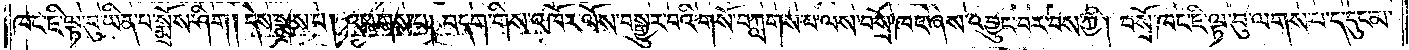ཁང་ཇི་ལྟ་བུ་ཡིན་པ་སྨྲོས་ཤིག །དེས་སྨྲས་པ། འཕགས་པ། བདག་གིས་འཁོར་ལོས་བསྒྱུར་བའི་གསོ་བཀླགས་པ་ལས་བསྲོ་ཁང་ཞེས་འབྱུང་བར་བས་ཀྱི། བསྲོ་ཁང་ཇི་ལྟ་བུ་ལགས་པ་ད་དུང་མ་
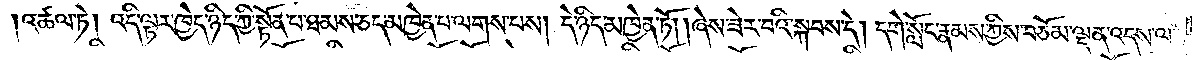འཚལ་ཏེ། འདི་ལྟར་ཁྱེད་ཉིད་ཀྱི་སྟོན་པ་ཐམས་ཅད་མཁྱེན་པ་ལགས་པས། དེ་ཉིད་མཁྱེན་ཏོ། །ཞེས་ཟེར་བའི་སྐབས་དེ། དགེ་སློང་རྣམས་ཀྱིས་བཅོམ་ལྡན་འདས་ལ་
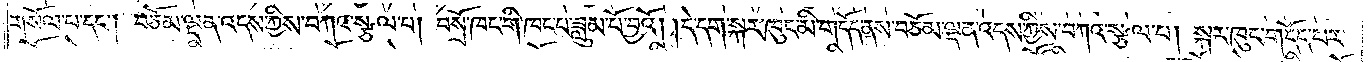གསོལ་པ་དང༌། བཅོམ་ལྡན་འདས་ཀྱིས་བཀའ་སྩལ་པ། བསྲོ་ཁང་གི་ཁང་པ་ཟླུམ་པོ་བྱའོ། །དེ་དག་སྐར་ཁུང་མི་གདོད་ནས་བཅོམ་ལྡན་འདས་ཀྱིས་བཀའ་སྩལ་པ། སྐར་ཁུང་གདོད་པར་
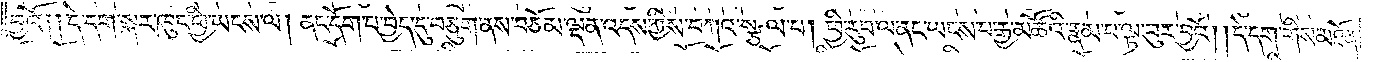བྱའོ། །དེ་དག་སྐར་ཁུང་ཕྱི་ཡངས་ལ། ནང་དོག་པ་བྱེད་དུ་བཅུག་ནས་བཅོམ་ལྡན་འདས་ཀྱིས་བཀའ་སྩལ་པ། ཕྱི་རུབ་ལ་ནང་ཡངས་པ་རྒྱ་མཚོའི་རྣམ་པ་ལྟ་བུར་བྱའོ། །དེ་དག་གིས་མཐོན་
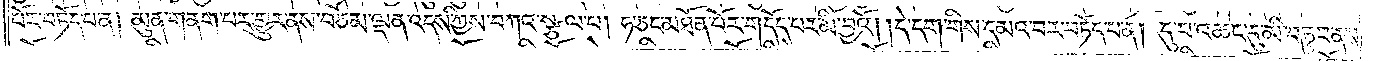པོར་བཏོད་པ་ན། མུན་གནག་པར་གྱུར་ནས་བཅོམ་ལྡན་འདས་ཀྱིས་བཀའ་སྩལ་པ། ཧ་ཅང་མཐོན་པོར་གདོད་པར་མི་བྱའོ། །དེ་དག་གིས་དམའ་བར་བཏོད་པ་ན། དུ་བ་འཆང་དུ་མི་བཏུབ་ནས་
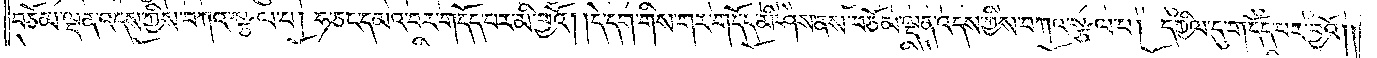བཅོམ་ལྡན་འདས་ཀྱིས་བཀའ་སྩལ་པ། ཧ་ཅང་དམའ་བར་གདོད་པར་མི་བྱའོ། །དེ་དག་གིས་གར་གདོད་མི་ཤེས་ནས་བཅོམ་ལྡན་འདས་ཀྱིས་བཀའ་སྩལ་པ། དཀྱིལ་དུ་གདོད་པར་བྱའོ། །
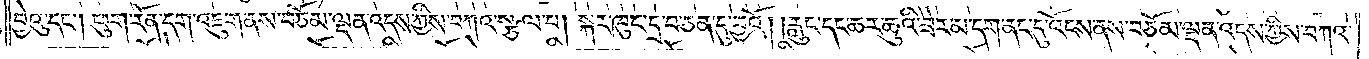བྱེའུ་དང༌། ཕུག་རོན་དག་འཇུག་ནས་བཅོམ་ལྡན་འདས་ཀྱིས་བཀའ་སྩལ་པ། སྐར་ཁུང་དྲ་བ་ཅན་དུ་བྱའོ། །རླུང་དང་ཆར་ཆུའི་ཟེར་མ་དག་ནང་དུ་འོངས་ནས་བཅོམ་ལྡན་འདས་ཀྱིས་བཀའ་
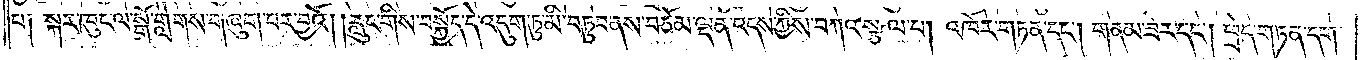པ༑ སྐར་ཁུང་ལ་སྒོ་གླེགས་གཞུག་པར་བྱའོ། །རླུང་གིས་བསྐྱོད་དེ་འདུག་ཏུ་མི་བཏུབ་ནས་བཅོམ་ལྡན་འདས་ཀྱིས་བཀའ་སྩལ་པ། འཁོར་གཏན་དང༌། གནམ་ཟེར་དང༌། ཕྲེད་གཏན་དག་
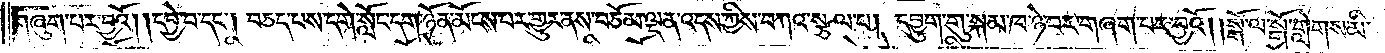གཞུག་པར་བྱའོ། །དབྱེ་བ་དང༌། བཅད་པས་དགེ་སློང་དག་ཉོན་མོངས་པར་གྱུར་ནས་བཅོམ་ལྡན་འདས་ཀྱིས་བཀའ་སྩལ་པ། དབྱུག་གུ་སྐམ་ཁ་ཉེ་བར་གཞག་པར་བྱའོ། །སྒོ་ལ་སྒོ་གླེགས་མི་
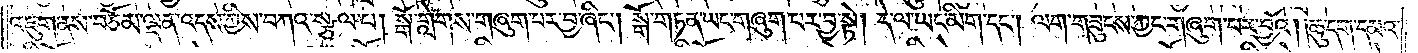འཇུག་ནས་བཅོམ་ལྡན་འདས་ཀྱིས་བཀའ་སྩལ་པ། སྒོ་གླེགས་གཞུག་པར་བྱ་ཞིང༌། སྒོ་གཏན་ཡང་གཞུག་པར་བྱ་སྟེ། དེ་ལ་ཡང་མིག་དང༌། ལག་གཟུངས་ཀྱང་གཞུག་པར་བྱའོ། །ཆུ་དག་དམའ་
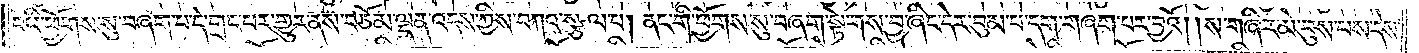བའི་ཕྱོགས་སུ་བཞག་པ་དེ་གྲང་པར་གྱུར་ནས་བཅོམ་ལྡན་འདས་ཀྱིས་བཀའ་སྩལ་པ། ནང་གི་ཕྱོགས་སུ་བཞག་སྟེགས་བྱ་ཞིང་དེར་བུམ་པ་དག་གཞག་པར་བྱའོ། །ས་གཞིར་མེ་བུས་པས་དེས་
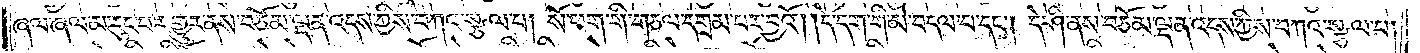ཞལ་ཞལ་མ་རུང་པར་གྱུར་ནས་བཅོམ་ལྡན་འདས་ཀྱིས་བཀའ་སྩལ་པ། སོ་ཕག་གི་གཅལ་དགྲམ་པར་བྱའོ། །དེ་དག་གི་མེ་བདལ་བ་དང༌། དེ་ཤི་ནས་བཅོམ་ལྡན་འདས་ཀྱིས་བཀའ་སྩལ་པ།
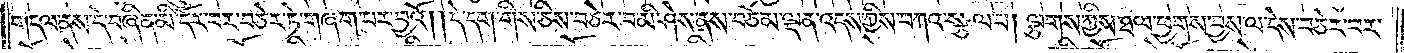གདལ་ནས་དེ་བཞིན་མི་དོར་བར་བཅེར་ཏེ་གཞག་པར་བྱའོ། །དེ་དག་གིས་ཅིས་བཅེར་བ་མི་ཤེས་ནས་བཅོམ་ལྡན་འདས་ཀྱིས་བཀའ་སྩལ་པ། ལྕགས་ཀྱིས་ཐལ་ཕྱགས་བྱས་ལ་དེས་བཅེར་བར་
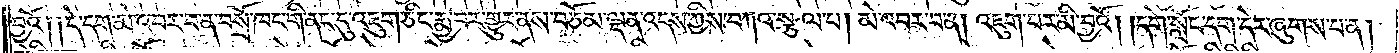བྱའོ༑ ༑དེ་དག་མེ་འབར་བ་ན་བསྲོ་ཁང་གི་ནང་དུ་འཇུག་ཅིང་རྨྱ་བར་གྱུར་ནས་བཅོམ་ལྡན་འདས་ཀྱིས་བཀའ་སྩལ་པ། མེ་འབར་བ་ན། འཇུག་པར་མི་བྱའོ། །དགེ་སློང་དག་དེར་ཞུགས་པ་ན།
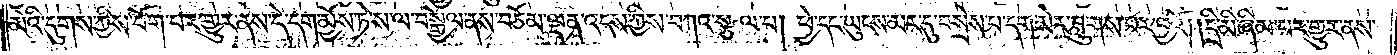མེའི་དུགས་ཀྱིས་བོག་པར་གྱུར་ནས་དེ་དག་མྱོས་ཏེ་ས་ལ་བསྒྱེལ་ནས་བཅོམ་ལྡན་འདས་ཀྱིས་བཀའ་སྩལ་པ། ཕྱེ་དང་ཡུངས་མར་དུ་བསྲེས་པ་དག་མེར་བླུགས་པར་བྱའོ། །དྲི་མི་ཞིམ་པར་གྱུར་ནས་
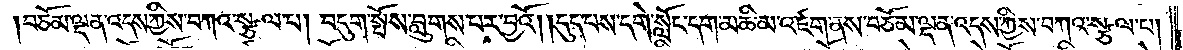བཅོམ་ལྡན་འདས་ཀྱིས་བཀའ་སྩལ་པ། བདུག་སྤོས་བླུགས་པར་བྱའོ། །དུད་པས་དགེ་སློང་དག་མཆི་མ་འཛག་ནས་བཅོམ་ལྡན་འདས་ཀྱིས་བཀའ་སྩལ་པ།
